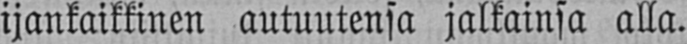ijankaikkinen autuutensa jalkainsa alla.
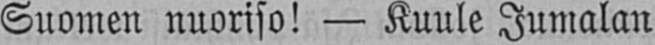Suomen nuoriso! - Kuule Jumalan
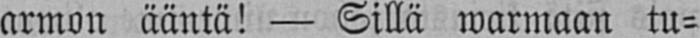armon ääntä! - Sillä warmaan tu-
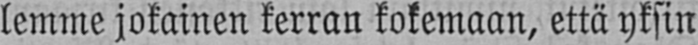lemme jokainen kerran kokemaan, että yksin
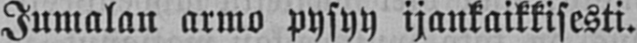Jumalan armo pysyy ijankaikkisesti.
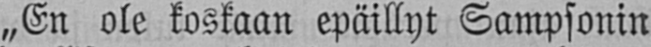„En ole koskaan epäillyt Sampsonin
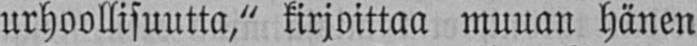urhoollisuutta," kirjoittaa muuan hänen
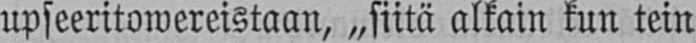upseeritowereistaan, „siitä alkain kun tein
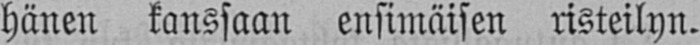hänen kanssaan ensimäisen risteilyn.
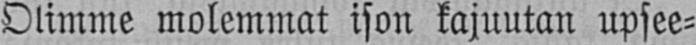Olimme molemmat ison kajuutan upsee-
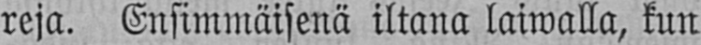reja. Ensimmäisenä iltana laiwalla, kun
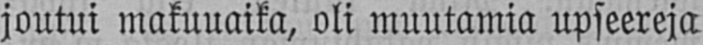joutui makuuaika, oli muutamia upseereja
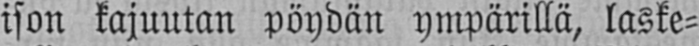ison kajuutan pöydän ympärillä, laske-
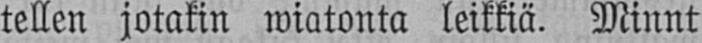tellen jotakin wiatonta leikkiä. Minnt
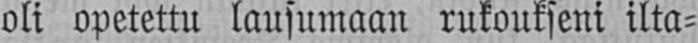oli opetettu lausumaan rukoukseni ilta-
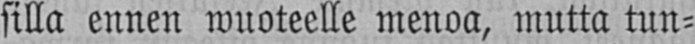silla ennen wuoteelle menoa, mutta tun-
